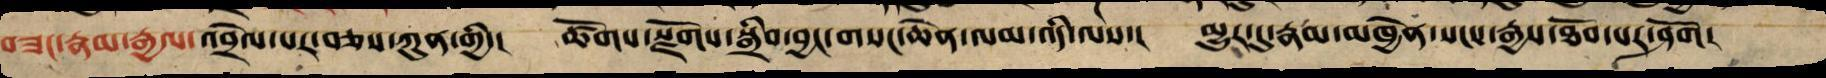བཟང་རྣམ་རྒྱལ་འབྲེལ་པར་བཅས་ཀུན་གྱི་། ཚོགས་སྫོགས་སྒྲིབ་བྱང་གསང་ཆེན་ལམ་འདི་ལས་། མྱུར་དུ་རྣམ་མཁྱེན་སངས་རྒྱས་ཐོབ་པར་ཤོག།
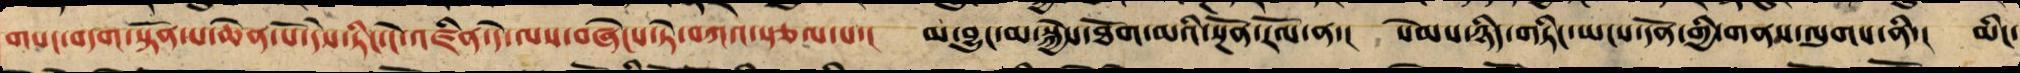གསང་བདག་སྟོན་པ་ཆེན་པོ་དེས་ཏིང་ངེ་འཛིན་དེ་ལས་བཞེངས་ཏེ་བཀའ་སྩལ་པ་། མ་བྱུང་མ་སྐྱེས་ཐོག་མའི་སྔོན་རོལ་ན་། སེམས་ཉིད་གཏིང་ཡངས་དོན་གྱི་གནས་ལུགས་ནི་། མིང་
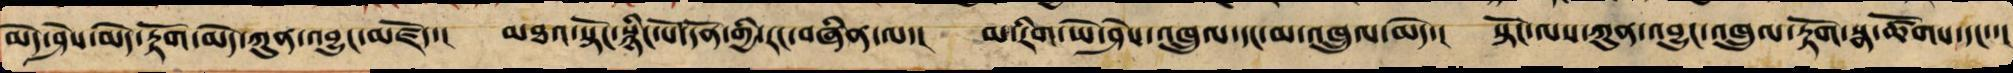མེད་ཤེས་མེད་རྟོག་མེད་ཀུན་འབྱུང་མཛོད་། མཐའ་སྟོང་སྙིང་པོ་དོན་གྱི་རང་བཞིན་ལ་། མ་རིག་ཡེ་ཤེས་འཁྲུལ་དང་མ་འཁྲུལ་མེད་། སྟོང་ལས་ཀུན་འབྱུང་འཁྲུལ་རྟོག་སྣ་ཚོགས་དང་་།
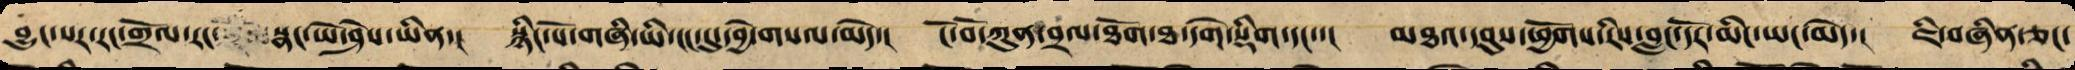བྱུང་སར་རང་གྲོལ་རང་སྣང་ཡེ་ཤེས་ཡིན་། སྙིང་པོ་གཞི་ཡི་ངང་དུ་དབྱེ་བསལ་མེད་། ངོ་བོ་ཀུན་བྲལ་ཐོག་མཐའ་དགེ་སྡིག་དང་་། མཐའ་དབུས་ཕྱོགས་རིས་བླང་དོར་མིང་ཡང་མེད་། ཇི་བཞིན་ཅང་
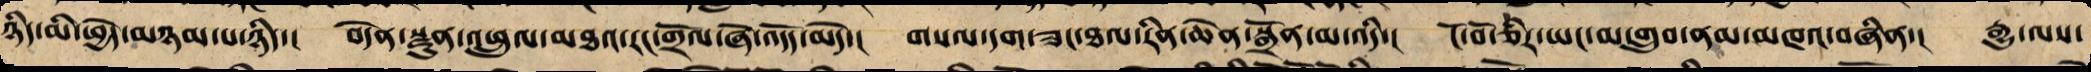ཉིད་མི་ཕྱེད་མཉམ་པ་ཉིད་། བདེན་སྫུན་འཕྲུལ་མཐའ་རང་གྲོལ་ཞེ་འདོད་མེད་། གསལ་དག་ཟང་ཐལ་རིན་ཆེན་སྒྲོན་མ་འདི་། ངོ་བོ་ཅིར་ཡང་མ་གྲུབ་ནམ་མཁའ་བཞིན་། རྒྱུ་ལས་
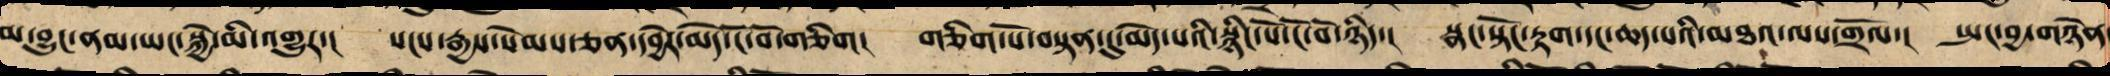མ་བྱུང་ནམ་ཡང་སྐྱེ་མི་འགྱུར་། སངས་རྒྱས་སེམས་ཅན་དབྱེར་མེད་ངོ་བོ་གཅིག། གཅིག་པོ་བསྟན་དུ་མེད་པའི་སྙིང་པོ་ངོ་བོ་ཉིད་། སྣང་སྟོང་རྟག་དང་ཆད་པའི་མཐའ་ལས་གྲོལ་། སྤང་བྱ་གཉེན་
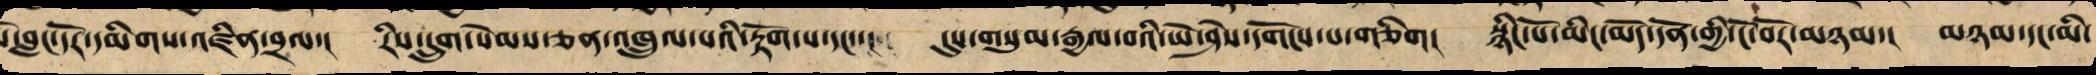པོ་བླང་དོར་དམིགས་འཛིན་བྲལ་། རིགས་དྲུག་སེམས་ཅན་འཁྲུལ་པའི་རྟོག་པ་དང་་། དུས་གསུམ་རྒྱལ་བའི་ཡེ་ཤེས་དགོངས་པ་གཉིས་། སྙིང་པོ་མིང་མེད་དོན་གྱི་ངོ་བོར་མཉམ་། མཉམ་དང་མི་
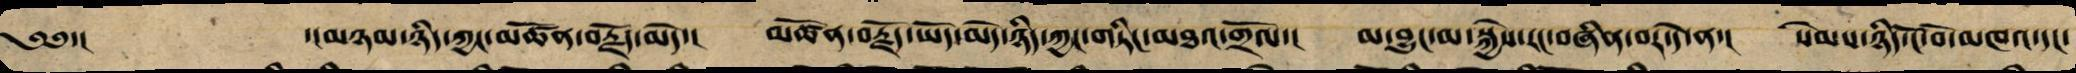༄༅་། ་།མཉམ་ཉིད་ཀྱང་མཚོན་བརྗོད་མེད་། མཚོན་བརྗོད་ཡོད་མེད་ཉིད་ཀྱང་གཏིང་མཐའ་གྲོལ་། མ་བྱུང་མ་སྐྱེས་རང་བཞིན་བར་དོ་ན་། སེམས་ཉིད་ངོ་བོ་མཁའ་དང་
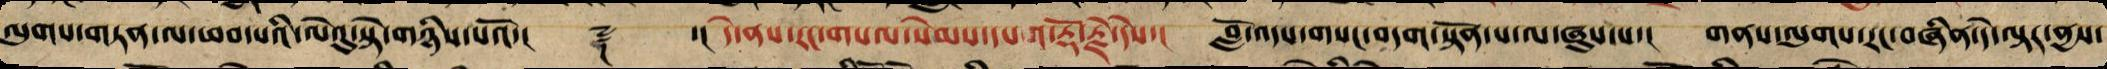ལུགས་གཏན་ལ་ཕབ་པའི་ལེའུ་སྟེ་གཉིས་པའོ་།། ༈ ་། དེ་ནས་རང་གསལ་སེམས་དཔའ་རྡོ་རྗེ་དེས་། བློ་འདས་གསང་བདག་སྟོན་པ་ལ་ཞུས་པ་། གནས་ལུགས་རང་བཞིན་དེ་ལྟར་ནྱས་
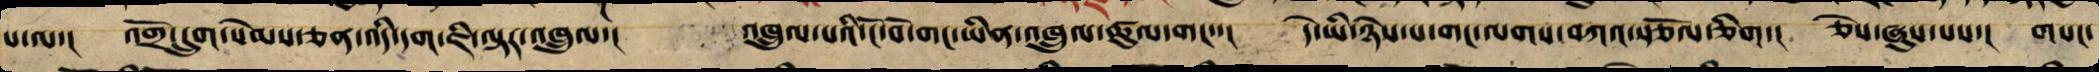པ་ལ་། འགྲོ་དྲུག་སེམས་ཅན་འདི་དག་ཇི་ལྟར་འཁྲུལ་། འཁྲུལ་པའི་ངོ་བོ་གང་ཡིན་འཁྲུལ་ཚུལ་གང་་། དེ་ཡི་ཉེས་པ་གང་ལགས་བཀའ་སྩོལ་ཅིག། ཅེས་ཞུས་པས་། གསང་
